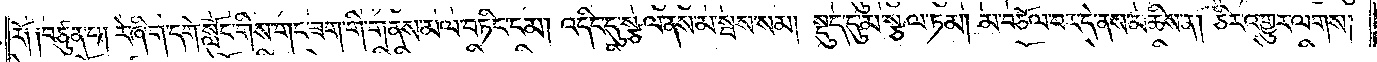རོ༑ ༑བཙུན་པ། རེ་ཞིག་དགེ་སློང་གིས་གང་ཟག་གི་གནས་མལ་བཏིང་ངམ། འདིང་དུ་སྩལ་ནས་མ་སྦས་སམ། སྡུད་དུ་མ་སྩལ་ཏམ། མ་བཅོལ་བར་དེ་ནས་མཆིས་ན། ཅིར་འགྱུར་ལགས།
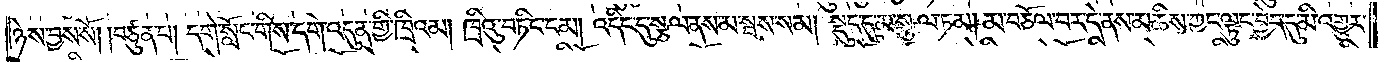ཉེས་བྱས་སོ། །བཙུན་པ། དགེ་སློང་གིས་དགེ་འདུན་གྱི་ཁྲིའམ། ཁྲིའུ་བཏིང་ངམ། འདིང་དུ་སྩལ་ནས་མ་སྦས་སམ། སྡུད་དུ་མ་སྩལ་ཏམ། མ་བཅོལ་བར་དེ་ནས་མཆིས་ཀྱང་ལྟུང་བྱེད་དུ་མི་འགྱུར་
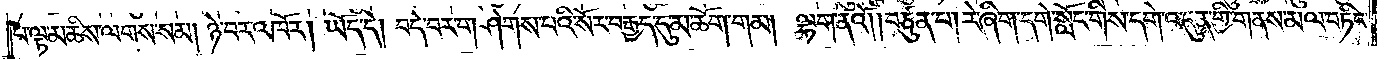པ་ལྟ་མཆིས་ལགས་སམ། ཉེ་བར་འཁོར། ཡོད་དེ། བདེ་བར་གཤེགས་པའི་སོར་བརྒྱད་དུ་མཆོག་གམ། ལྷག་ནའོ། །རེ་ཞིག་དགེ་སློང་གིས་དགེ་འདུན་གྱི་གནས་མལ་བཏིང་
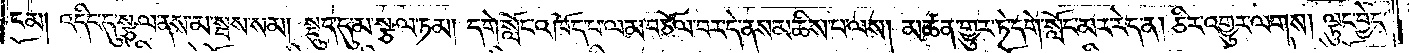ངམ། འདིང་དུ་སྩལ་ནས་མ་སྦས་སམ། སྡུད་དུ་མ་སྩལ་ཏམ། དགེ་སློང་འཁོད་པ་ལ་མ་བཅོལ་བར་དེ་ནས་མཆིས་པ་ལས། མཚན་གྱུར་ཏེ་དགེ་སློང་མར་རེད་ན། ཅིར་འགྱུར་ལགས། ལྟུང་བྱེད་
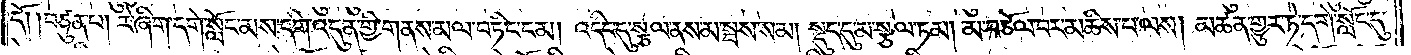དོ། །བཙུན་པ། རེ་ཞིག་དགེ་སློང་མས་དགེ་འདུན་གྱི་གནས་མལ་བཏིང་ངམ། འདིང་དུ་སྩལ་ནས་མ་སྦས་སམ། སྡུད་དུ་མ་སྩལ་ཏམ། མ་བཅོལ་བར་མཆིས་པ་ལས། མཚན་གྱུར་ཏེ་དགེ་སློང་དུ་
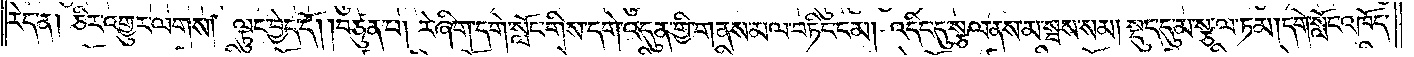རེད་ན། ཅིར་འགྱུར་ལགས། ལྟུང་བྱེད་དོ། །བཙུན་པ། རེ་ཞིག་དགེ་སློང་གིས་དགེ་འདུན་གྱི་གནས་མལ་བཏིང་ངམ། འདིང་དུ་སྩལ་ནས་མ་སྦས་སམ། སྡུད་དུ་མ་སྩལ་ཏམ། དགེ་སློང་འཁོད་
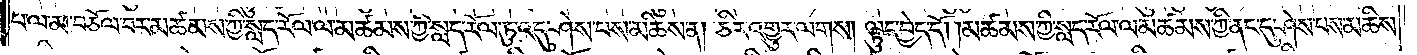པ་ལ་མ་བཅོལ་བར་མཚམས་ཀྱི་སླད་རོལ་ལ་མཚམས་ཀྱི་སླད་རོལ་ཏུ་འདུ་ཤེས་པས་མཆིས་ན། ཅིར་འགྱུར་ལགས། ལྟུང་བྱེད་དོ། །མཚམས་ཀྱི་སླད་རོལ་ལ་མཚམས་ཀྱི་ནང་དུ་ཤེས་པས་མཆིས་
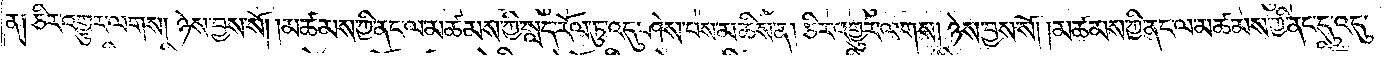ན༑ ཅིར་འགྱུར་ལགས། ཉེས་བྱས་སོ། །མཚམས་ཀྱི་ནང་ལ་མཚམས་ཀྱི་སླད་རོལ་ཏུ་འདུ་ཤེས་པས་མཆིས་ན། ཅིར་འགྱུར་ལགས། ཉེས་བྱས་སོ། །མཚམས་ཀྱི་ནང་ལ་མཚམས་ཀྱི་ནང་དུ་འདུ་
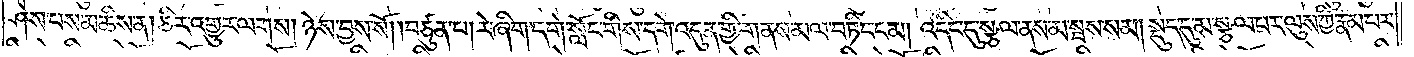ཤེས་པས་མཆིས་ན། ཅིར་འགྱུར་ལགས། ཉེས་བྱས་སོ། །བཙུན་པ། རེ་ཞིག་དགེ་སློང་གིས་དགེ་འདུན་གྱི་གནས་མལ་བཏིང་ངམ། འདིང་དུ་སྩལ་ནས་མ་སྦས་སམ། སྡུད་དུ་མ་སྩལ་བར་ལུས་ཀྱི་རྣམ་པར་
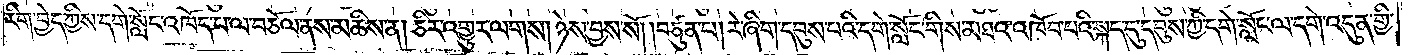རིག་བྱེད་ཀྱིས་དགེ་སློང་འཁོད་པ་ལ་བཅོལ་ནས་མཆིས་ན། ཅིར་འགྱུར་ལགས། ཉེས་བྱས་སོ། །བཙུན་པ། རེ་ཞིག་དབུས་པའི་དགེ་སློང་གིས་མཐའ་འཁོབ་པའི་སྐད་དུ་དབུས་ཀྱི་དགེ་སློང་ལ་དགེ་འདུན་གྱི་
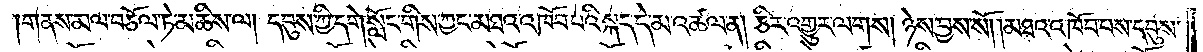།གནས་མལ་བཅོལ་ཏེ་མཆིས་ལ། དབུས་ཀྱི་དགེ་སློང་གིས་ཀྱང་མཐའ་འཁོབ་པའི་སྐད་དེ་མ་འཚལ་ན། ཅིར་འགྱུར་ལགས། ཉེས་བྱས་སོ། །མཐའ་འཁོབ་པས་དབུས་
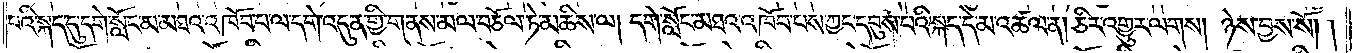པའི་སྐད་དུ་དགེ་སློང་མ་མཐའ་འཁོབ་པ་ལ་དགེ་འདུན་གྱི་གནས་མལ་བཅོལ་ཏེ་མཆིས་ལ། དགེ་སློང་མཐའ་འཁོབ་པས་ཀྱང་དབུས་པའི་སྐད་དེ་མ་འཚལ་ན། ཅིར་འགྱུར་ལགས། ཉེས་བྱས་སོ། །
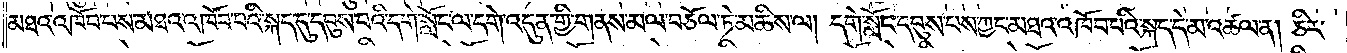མཐའ་འཁོབ་པས་མཐའ་འཁོབ་པའི་སྐད་དུ་དབུས་པའི་དགེ་སློང་ལ་དགེ་འདུན་གྱི་གནས་མལ་བཅོལ་ཏེ་མཆིས་ལ། དགེ་སློང་དབུས་པས་ཀྱང་མཐའ་འཁོབ་པའི་སྐད་དེ་མ་འཚལ་ན། ཅིར་
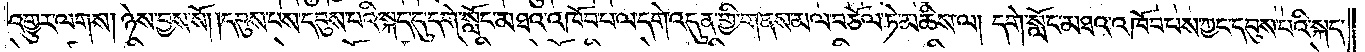འགྱུར་ལགས། ཉེས་བྱས་སོ། །དབུས་པས་དབུས་པའི་སྐད་དུ་དགེ་སློང་མཐའ་འཁོབ་པ་ལ་དགེ་འདུན་གྱི་གནས་མལ་བཅོལ་ཏེ་མཆིས་ལ། དགེ་སློང་མཐའ་འཁོབ་པས་ཀྱང་དབུས་པའི་སྐད་
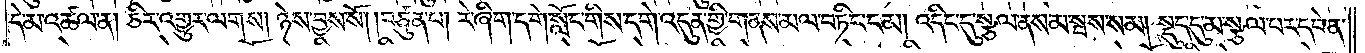དེ་མ་འཚལ་ན། ཅིར་འགྱུར་ལགས། ཉེས་བྱས་སོ། །བཙུན་པ། རེ་ཞིག་དགེ་སློང་གིས་དགེ་འདུན་གྱི་གནས་མལ་བཏིང་ངམ། འདིང་དུ་སྩལ་ནས་མ་སྦས་སམ། སྡུད་དུ་མ་སྩལ་བར་དབེན་
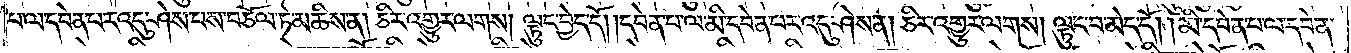པ་ལ་དབེན་པར་འདུ་ཤེས་པས་བཅོལ་ཏེ་མཆིས་ན། ཅིར་འགྱུར་ལགས། ལྟུང་བྱེད་དོ། །དབེན་པ་ལ་མི་དབེན་པར་འདུ་ཤེས་ན། ཅིར་འགྱུར་ལགས། ལྟུང་བ་མེད་དོ། །མི་དབེན་པ་ལ་དབེན་
